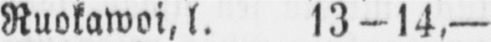Ruokawoi,l. 13-14,—
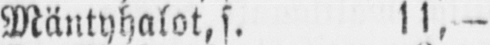Mäntyhalot.s. 11,-
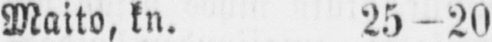Maito, kn. 25 - 20
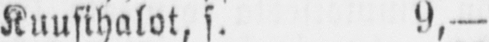Kuusihalot, s. 9,—
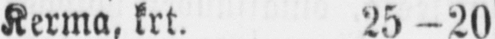Kerma, krt. 25-20
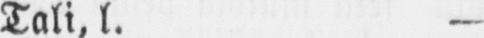Tali. l. -
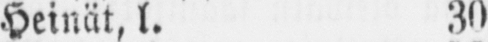Heinät, l. 30
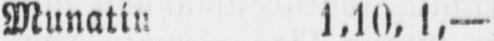Munatiu 1,10, 1,—
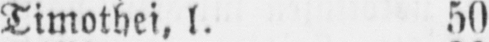Timothei, l. 50
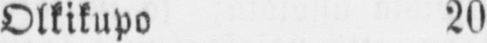Olkikupo 20
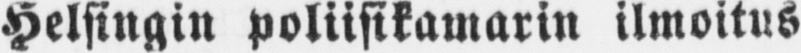Helsingin poliisikamarin ilmoitus
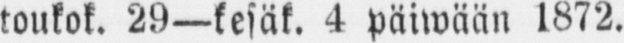toukok. 29—kesät. 4 päiwään 1872.
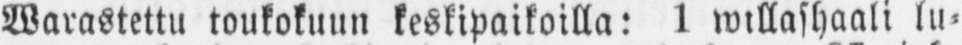Warastettu toukokuun keskipaikoilla: 1 willashaali lu-
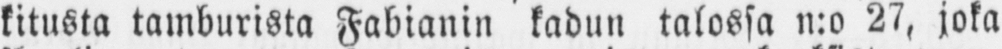kitusta tamburista Fabianin kadun talossa n:o 27, joka
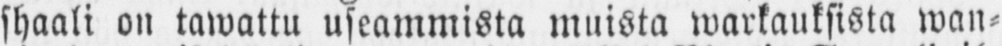shaali on tawattu useammista muista warkauksista wan-
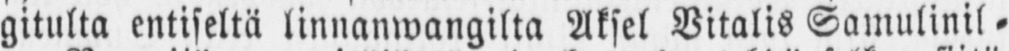gitulta entiseltä linnanwangilta Aksel Vitalis Samulinil-
